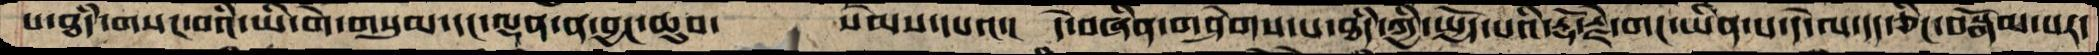པ་ཐདཾ་གསང་བའི་ཡི་གེ་གསུམ་དང་ལྡན་ན་བྱང་ཆུབ་   སེམས་དཔའ་།  དེ་བཞིན་གཤེགས་པ་ཐདཾ་ཀྱི་སྤྱོད་པའི་རྡོ་རྗེ་གང་ཡིན་པ་དེ་ལ་དད་ཅིང་བསྒོམ་པར་
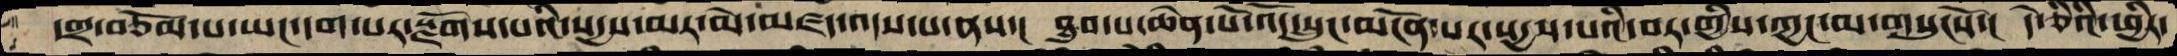དགྲ་བཅོམ་པ་ཡང་དག་པར་སྫོགས་པའི་སདྱས་མར་རེ་མཛད་འདས་པ་ནས་། ཐུབ་པ་ཆེན་པོ་འོད་སྲུང་མངོན་པར་སདྱས་པའི་བར་གྱིས་ཀྱང་མ་གསུངསོ་། དེ་ཅིའི་ཕྱིར་
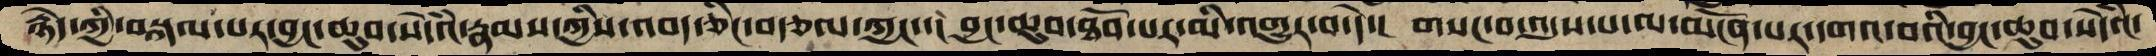རྙེད་ཀྱི་བསྐལ་པར་བྱང་ཆུབ་སེདཾའ་རྣམས་ཀྱིས་འབད་ཅིང་བརྩལ་ཀྱང་་།  བྱང་ཆུབ་ཐོབ་པར་མི་འགྱུར་བ་དེ་།  གསང་བ་འདུས་པ་ལ་མངོན་པར་དགའ་བའི་བྱང་ཆུབ་སེདཾའ་
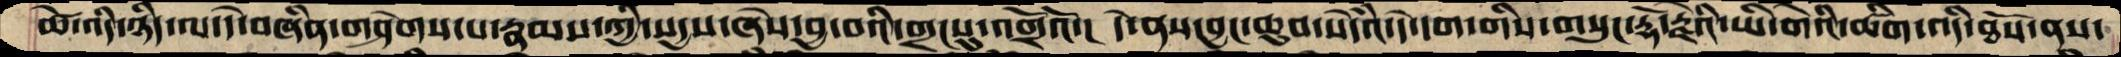ཚེ་འདི་ཉིད་ལ་དེ་བཞིན་གཤེགས་པ་རྣམས་ཀྱི་སདྱས་ཞེས་བྱ་བའི་གྲངསུ་འགྲོའོ་།  དེ་ནས་བྱང་ཆུབ་སེདཾའ་དེ་དག་གིས་གསུང་རྡོ་རྗེའི་ཡི་གེའི་ཚིག་འདི་ཐོས་ནས་
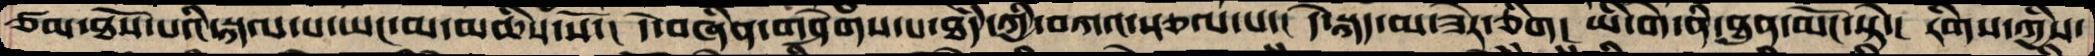ཙམ་ཐོས་པའི་སྐལ་པ་ཡང་མ་མཆིས་སོ་།  དེ་བཞིན་གཤེགས་པ་ཐཾད་ཀྱི་བཀའ་སྩལ་པ་།  དེ་སྐད་མ་ཟེར་ཅིག།  ཡི་གེ་ནི་ཐུན་མོང་སྟེ་།  རིགས་ཀྱིས་
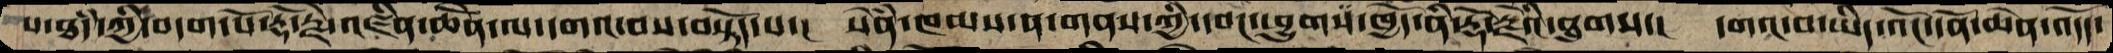པ་ཐདཾ་ཀྱི་བདག་པོ་རྡོ་རྗེ་འཛིན་ཆེོན་ལ་དགའ་བས་བསྟོད་པ་།  སེཾན་ཁམས་ན་གནས་ཀྱི་དབང་ཕྱུགས་ཁྱེད་ནི་རྡོ་རྗེའི་ཐུགས་།  དགའ་བ་ཡིད་འོང་དོན་ཆེན་འདོད་
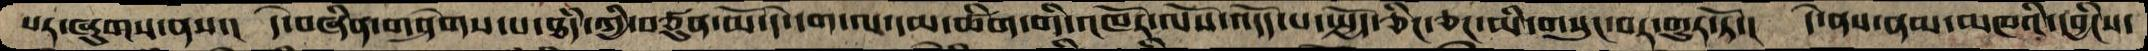པར་ཞུགས་ནས་།   དེ་བཞིན་གཤེགས་པ་ཐཾད་ཀྱི་བཙུན་མོ་དེ་དག་ལ་དམ་ཚིག་གི་འཁོར་ལོས་འདོད་པ་སྤྱོད་ཅིང་ཅང་མི་གསུང་བར་གྱུར་ཏོ་།  དེ་ནས་ནམ་མཁའི་དབྱིངས་
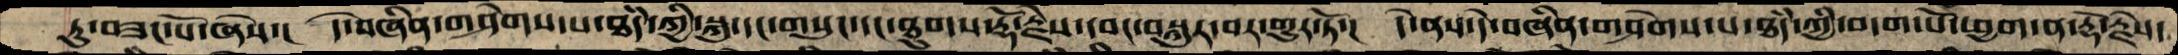ཏུ་བཟང་པོ་ཞེས་།     དེ་བཞིན་གཤེགས་པ་ཐཾད་ཀྱི་སྐུ་དང་གསུང་དང་ཐུགས་རྡོ་རྗེས་དབང་བསྐུར་བར་གྱུར་ཏོ་།  དེ་ནས་དེ་བཞིན་གཤེགས་པ་ཐཾད་ཀྱི་བདག་པོ་ཕྱག་ན་རྡོ་རྗེས་
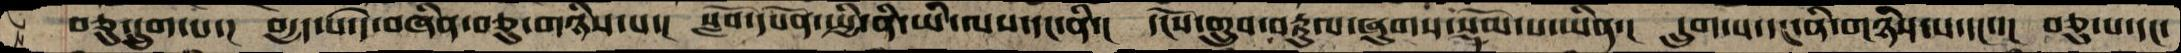བཅུ་དྲུག་པ་།  བདྱད་པ་དེ་བཞིན་བཅུ་གཉིས་པ་། སློབ་དཔོན་སྤྱི་ནི་ཡི་ལས་དང་ནི་། དངོས་གྲུབ་བརྟུལ་ཞུགས་སྡོམ་པ་ཡིན་།  དྲུག་པ་དང་ནི་གཉིས་པ་དང་་། བཅུ་པ་དང་
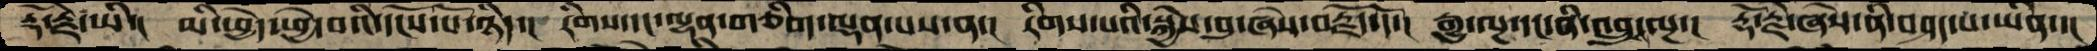རྡོ་རྗེ་ཡི་། མི་ཕྱེད་ཕྱེ་བའི་དངོས་པོ་ཉིད་། རིགས་དང་ལྡན་གཅིག་ལྡན་པས་ན་། རིགས་པའི་སྐྱེས་བུ་ཞེས་བརྗོད་དོ་། རྒྱུ་ལྔ་དང་ནི་འབྲུས་ལྔ་། རྡོ་རྗེ་ཞེས་ནི་བཤད་པ་ཡིན་་།
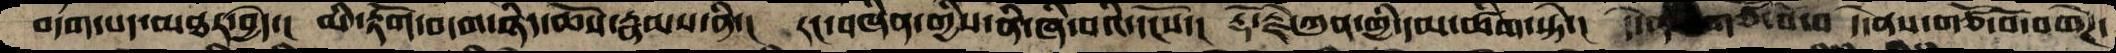བདག་པད་མཐར་བྱེད་། མི་རྟོག་བདག་ཉིད་ཆོས་རྣམས་ནི་། རང་བཞིན་གྱིས་ནི་ཞི་བའི་དངོས་། རྡོ་རྗེ་ཀུན་གྱི་དམ་ཚིག་སྟེ་། དེ་ནས་གཙོ་བོས་ དེ་ནས་གཙོ་བོ་བགེཌ་
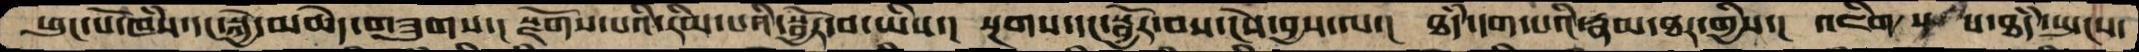ཕུང་པོ་ཁཾས་དང་སྐྱེ་མཆེད་གཟུགས་། སྫོགས་པའི་རིམ་པའི་སྦྱོར་བ་ཡིས་། སྔགས་དང་སྦྱོར་བས་ངེས་བྱས་ལ་། ཐཾད་དག་པའི་རྣམ་ཐར་གྱིས་། འཇིགས་པས་ཐཾད་སྤངས་
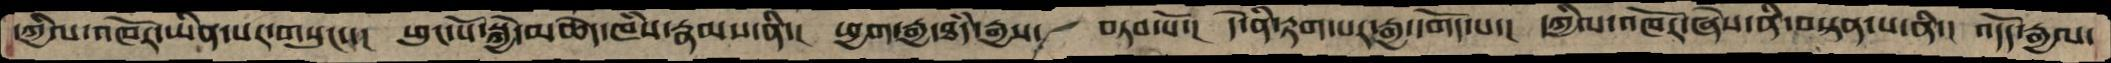དཀྱིལ་འཁོར་ཡིན་པར་གསུངས་་། ཕུང་པོ་སྐྱེ་མཆེད་ཁཾས་རྣམས་ནི་། ཕྱག་རྒྱ་ཐཾད་རྒྱས་  བཏབ་སོ་། དེ་ནི་རྟག་པར་རྒྱ་དགོད་པ་། དཀྱིལ་འཁོར་ཞེས་ནི་བསྟན་པ་ནི་། འདོད་རྒྱལ་
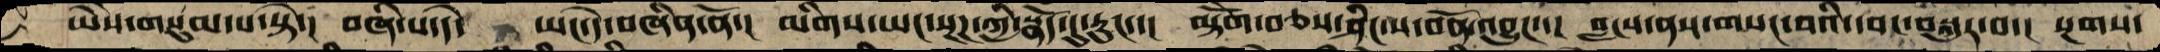ཡཻས་གསུམ་པ་སྟེ་། བཞི་པ་དེ་  ཡང་དེ་བཞིན་ནོ་། མིགས་ཡང་སྔཌ་ཀྱི་སྣོད་དུ་རུང་་། མྟེོག་བཅས་ཤིང་ས་བོན་འབྱུང་་། བླངས་ནས་གསང་བའི་དབང་བསྐུར་བ་། སྔགས་
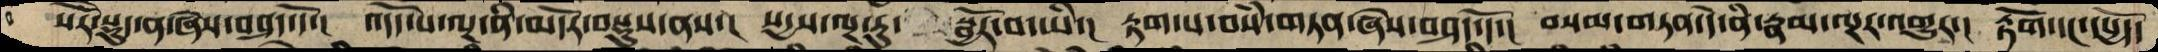སོར་སྡུད་ན་ཞེས་བཤད་དོ་། འདོད་པ་ལྔ་ནི་མདོར་བསྡུས་ནས་། སདྱས་ལྔ་རུ་  སྦྱོར་བ་ཡི་། རྟག་པ་བསཾ་གཏན་ཞེས་བཤད་དོ་། བསམ་བཏན་དེ་ནི་རྣམ་ལྔར་འགྱུར་། རྟོག་དང་དཔྱོད་
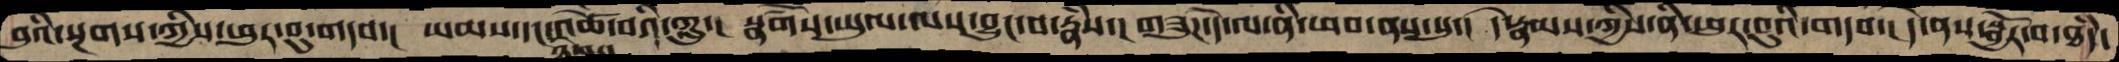བུའི་སྔགས་ཀྱིས་ཕུར་བུ་གདབ་། ཡམས་དང་ཉེ་བར་འཚེ་བའི་གླུ་། སྣཚོགས་ཡུལ་ལས་བྱུང་བ་རྣཾས་། གཟུཌ་དེ་ལ་ནི་ཕབ་ནས་སུ་། དེ་རྣམས་ཀྱིས་ནི་ཕུར་བུའི་གདབ་། དེ་ནས་སྦྱོར་བ་ཐཾད་
